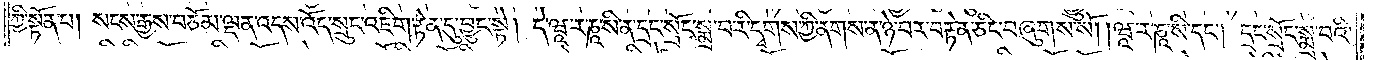ཀྱི་སྟོན་པ། སངས་རྒྱས་བཅོམ་ལྡན་འདས་འོད་སྲུང་འཇིག་རྟེན་དུ་བྱུང་སྟེ། དེ་ཝཱ་ར་ཎཱ་སི་ན་དྲང་སྲོང་སྨྲ་བ་རི་དྭགས་ཀྱི་ནགས་ན་ཉེ་བར་བརྟེན་ཅིང་བཞུགས་སོ། །ཝཱ་ར་ཎཱ་སི་དང༌། དྲང་སྲོང་སྨྲ་བའི་
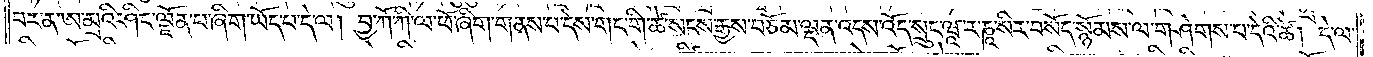བར་ན་ཨ་མྲའི་ཤིང་ལྗོན་པ་ཞིག་ཡོད་པ་དེ་ལ། བྱ་ཀོ་ཀི་ལ་ཕོ་ཞིག་གནས་པ་དེས་གང་གི་ཚེ་སངས་རྒྱས་བཅོམ་ལྡན་འདས་འོད་སྲུང་ཝཱ་ར་ཎཱ་སིར་བསོད་སྙོམས་ལ་གཤེགས་པ་དེའི་ཚེ། དེ་ལ་
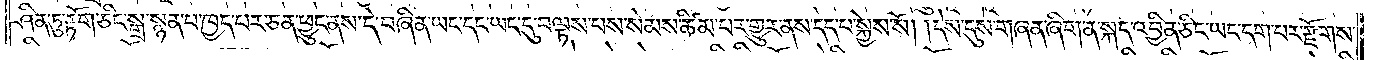ཤིན་ཏུ་རྟོག་ཅིང་སྒྲ་སྙན་པ་ཁྱད་པར་ཅན་ཕྱུང་ནས་དེ་བཞིན་ཡང་དང་ཡང་དུ་བལྟས་པས་སེམས་ཚིམ་པར་གྱུར་ནས་དད་པ་སྐྱེས་སོ། །དེས་དུས་གཞན་ཞིག་ན་སྐད་འབྱིན་ཅིང་ཡང་དག་པར་རྫོགས་
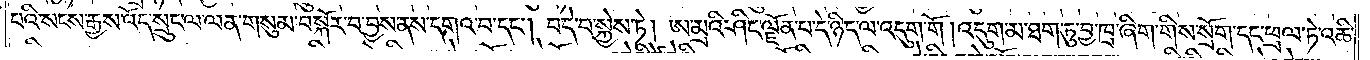པའི་སངས་རྒྱས་འོད་སྲུང་ལ་ལན་གསུམ་བསྐོར་བ་བྱས་ནས་དགའ་བ་དང༌། བདེ་བ་སྐྱེས་ཏེ། ཨ་མྲའི་ཤིང་ལྗོན་པ་དེ་ཉིད་ལ་འདུག་གོ །འདུག་མ་ཐག་ཏུ་བྱ་ཁྲ་ཞིག་གིས་སྲོག་དང་ཕྲལ་ཏེ་འཆི་
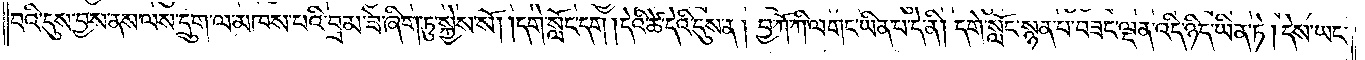བའི་དུས་བྱས་ནས་ལས་དྲུག་ལ་མཁས་པའི་བྲམ་ཟེ་ཞིག་ཏུ་སྐྱེས་སོ། །དགེ་སློང་དག །དེའི་ཚེ་དེའི་དུས་ན། བྱ་ཀོ་ཀི་ལ་གང་ཡིན་པ་དེ་ནི། དགེ་སློང་སྙན་པ་བཟང་ལྡན་འདི་ཉིད་ཡིན་ཏེ། དེས་ཡང་
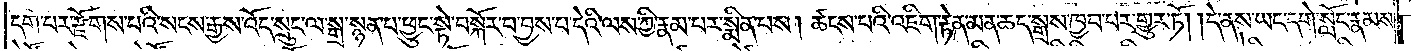དག་པར་རྫོགས་པའི་སངས་རྒྱས་འོད་སྲུང་ལ་སྒྲ་སྙན་པ་ཕྱུང་སྟེ་བསྐོར་བ་བྱས་པ་དེའི་ལས་ཀྱི་རྣམ་པར་སྨིན་པས། ཚངས་པའི་འཇིག་རྟེན་མན་ཆད་སྒྲས་ཁྱབ་པར་གྱུར་ཏོ། །དེ་ནས་ཡང་དགེ་སློང་རྣམས་
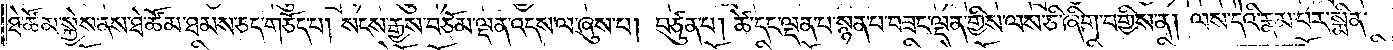ཐེ་ཚོམ་སྐྱེས་ནས་ཐེ་ཚོམ་ཐམས་ཅད་གཅོད་པ། སངས་རྒྱས་བཅོམ་ལྡན་འདས་ལ་ཞུས་པ། བཙུན་པ། ཚེ་དང་ལྡན་པ་སྙན་པ་བཟང་ལྡན་གྱིས་ལས་ཅི་ཞིག་བགྱིས་ན། ལས་དེའི་རྣམ་པར་སྨིན་
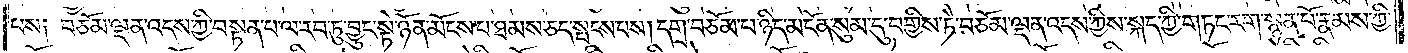པས༑ བཅོམ་ལྡན་འདས་ཀྱི་བསྟན་པ་ལ་རབ་ཏུ་བྱུང་སྟེ་ཉོན་མོངས་པ་ཐམས་ཅད་སྤངས་པས། དགྲ་བཅོམ་པ་ཉིད་མངོན་སུམ་དུ་བགྱིས་ཏེ་བཅོམ་ལྡན་འདས་ཀྱིས་སྐད་ཀྱི་གཏང་རག་སྙན་པོ་རྣམས་ཀྱི་
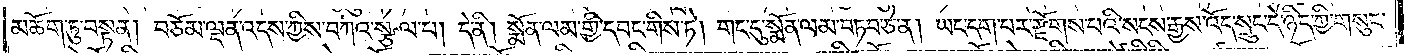མཆོག་ཏུ་བསྟན། བཅོམ་ལྡན་འདས་ཀྱིས་བཀའ་སྩལ་པ། དེ་ནི། སྨོན་ལམ་གྱི་དབང་གིས་ཏེ། གང་དུ་སྨོན་ལམ་བཏབ་ཅན། ཡང་དག་པར་རྫོགས་པའི་སངས་རྒྱས་འོད་སྲུང་དེ་ཉིད་ཀྱི་གསུང་
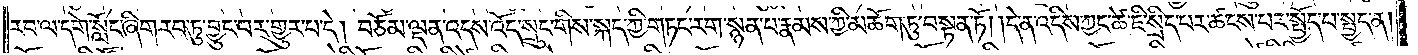རབ་ལ་དགེ་སློང་ཞིག་རབ་ཏུ་བྱུང་བར་གྱུར་པ་དེ། བཅོམ་ལྡན་འདས་འོད་སྲུང་གིས་སྐད་ཀྱི་གཏང་རག་སྙན་པ་རྣམས་ཀྱི་མཆོག་ཏུ་བསྟན་ཏོ། །དེ་ན་འདིས་ཀྱང་ཚེ་ཇི་སྲིད་པར་ཚངས་པར་སྤྱོད་པ་སྤྱད་ན།
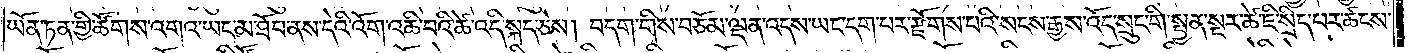ཡོན་ཏན་གྱི་ཚོགས་འགའ་ཡང་མ་ཐོབ་ནས་དེའི་འོག་འཆི་བའི་ཚེ་འདི་སྐད་ཅེས། བདག་གིས་བཅོམ་ལྡན་འདས་ཡང་དག་པར་རྫོགས་པའི་སངས་རྒྱས་འོད་སྲུང་གི་སྤྱན་སྔར་ཚེ་ཇི་སྲིད་པར་ཚངས་
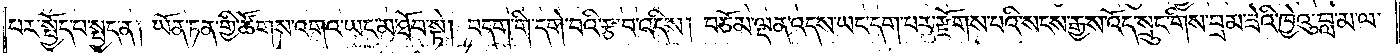པར་སྤྱོད་པ་སྤྱད་ན། ཡོན་ཏན་གྱི་ཚོགས་འགའ་ཡང་མ་ཐོབ་སྟེ། བདག་གི་དགེ་བའི་རྩ་བ་འདིས། བཅོམ་ལྡན་འདས་ཡང་དག་པར་རྫོགས་པའི་སངས་རྒྱས་འོད་སྲུང་གིས་བྲམ་ཟེའི་ཁྱེའུ་བླ་མ་ལ་
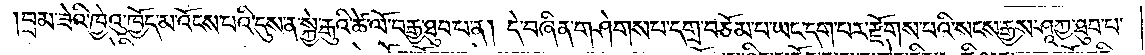བྲམ་ཟེའི་ཁྱེའུ་ཁྱོད་མ་འོངས་པའི་དུས་ན་སྐྱེ་རྒུའི་ཚེ་ལོ་བརྒྱ་ཐུབ་པ་ན། དེ་བཞིན་གཤེགས་པ་དགྲ་བཅོམ་པ་ཡང་དག་པར་རྫོགས་པའི་སངས་རྒྱས་ཤཱཀྱ་ཐུབ་པ་
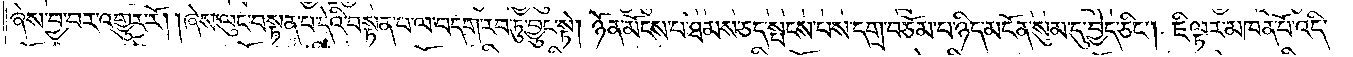ཞེས་བྱ་བར་འགྱུར་རོ། །ཞེས་ལུང་བསྟན་པ་དེའི་བསྟན་པ་ལ་བདག་རབ་ཏུ་བྱུང་སྟེ། ཉོན་མོངས་པ་ཐམས་ཅད་སྤངས་པས་དགྲ་བཅོམ་པ་ཉིད་མངོན་སུམ་དུ་བྱེད་ཅིང༌། ཇི་ལྟར་མཁན་པོ་འདི་
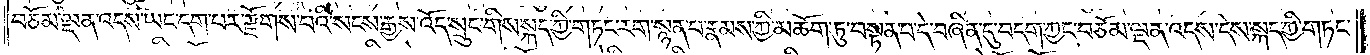བཅོམ་ལྡན་འདས་ཡང་དག་པར་རྫོགས་པའི་སངས་རྒྱས་འོད་སྲུང་གིས་སྐད་ཀྱི་གཏང་རག་སྙན་པ་རྣམས་ཀྱི་མཆོག་ཏུ་བསྟན་པ་དེ་བཞིན་དུ་བདག་ཀྱང་བཅོམ་ལྡན་འདས་དེས་སྐད་ཀྱི་གཏང་
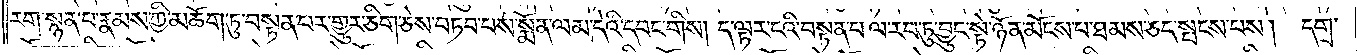རག་སྙན་པ་རྣམས་ཀྱི་མཆོག་ཏུ་བསྟན་པར་གྱུར་ཅིག་ཅེས་བཏབ་པས་སྨོན་ལམ་དེའི་དབང་གིས། ད་ལྟར་ངའི་བསྟན་པ་ལ་རབ་ཏུ་བྱུང་སྟེ་ཉོན་མོངས་པ་ཐམས་ཅད་སྤངས་པས། དགྲ་
